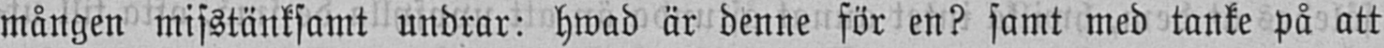mången misstänksamt undrar: hwad är denne för en? samt med tanke på att
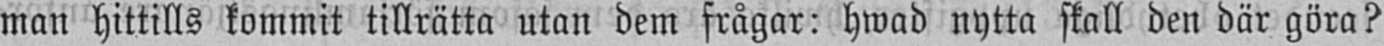man hittills kommit tillrätta utan dem frågar: hwad nytta skall den där göra?
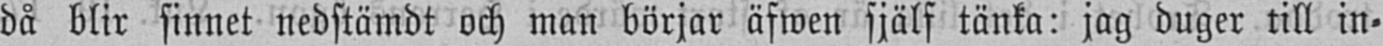då blir sinnet nedstämdt och man börjar äfwen själf tänka: jag duger till in-
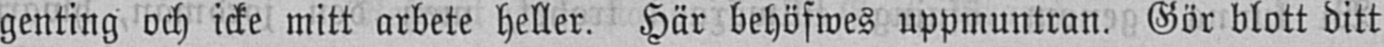genting och icke mitt arbete heller. Här behöfwes uppmuntran. Gör blott ditt
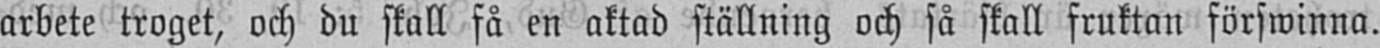arbete troget, och du skall få en aktad ställning och så skall fruktan förswinna.
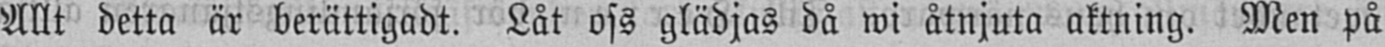Allt detta är berättigadt. Låt oss glädjas då wi åtnjuta aktning. Men på
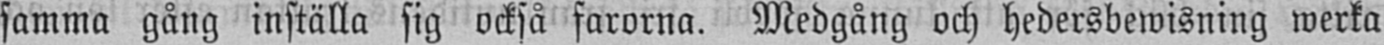samma gång inställa sig också farorna. Medgång och hedersbewisning werka
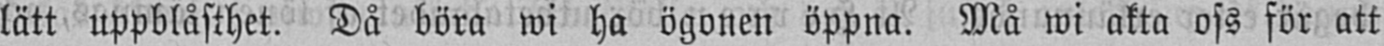lätt uppblåsthet. Då böra wi ha ögonen öppna. Må wi akta oss för att
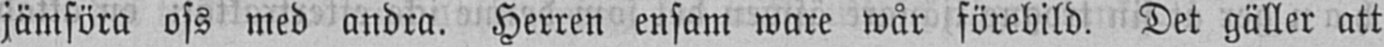jämföra oss med andra. Herren ensam ware wår förebild. Det gäller att
